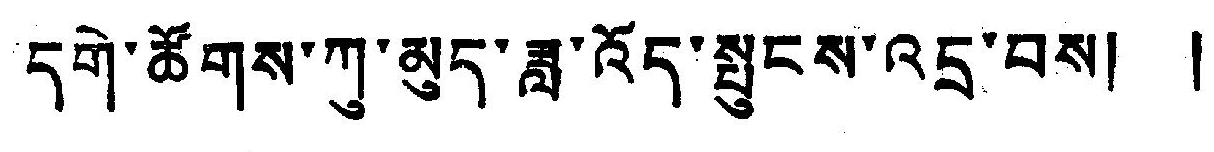དགེ་ཚོགས་ཀུ་མུད་ཟླ་འོད་སྤུངས་འདྲ་བས། །
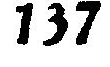137
